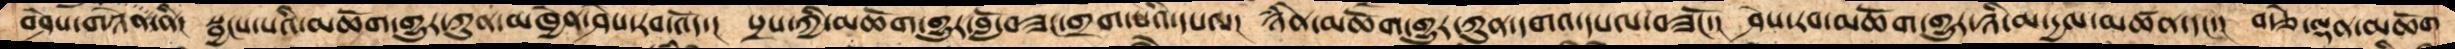བཤེས་གཉེན་ནི།  སྦྱངས་པའི་མཆོག་གྱུར་ཀུན་མཁྱེན་ཤེས་རབ་འོད་།  སྲས་ཀྱི་མཆོག་གྱུར་བློ་བཟང་གྲག་པའི་དཔལ།  ཉེཾན་མཆོག་གྱུར་ཀུན་དགའ་དཔལ་བཟངོ།  ཤེས་རབ་མཆོག་གྱུར་ཉི་མ་དྱལ་མཚན་དང་།  བརྩེ་ལྡན་མཆོག
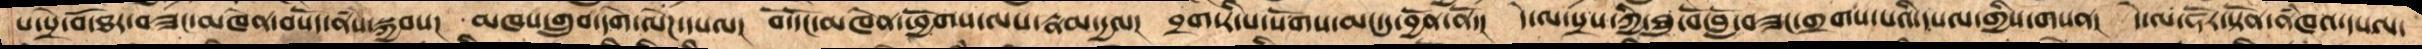པ་སྲེ་བོ་ཐར་བཟང་མཁེན་བསོད་ནཾས་སྐྱབས།  མཁས་གྲུབ་དགེ་ལེཌ་དཔལ།  བོ་དོང་ཕྱོགས་ལས་རྣམ་དྱལ།  བྲག་རི་པ་སོགས་མང་དུ་བྱོན་ནོ།  དེ་ལ་སྲས་ཀྱི་ཐུ་བོ་བློ་བཟང་གྲགས་པའི་དཔལ་གྱིས་གསན།  དེ་ལ་ཧོར་སྟོན་ནཾཁའ་དཔལ་
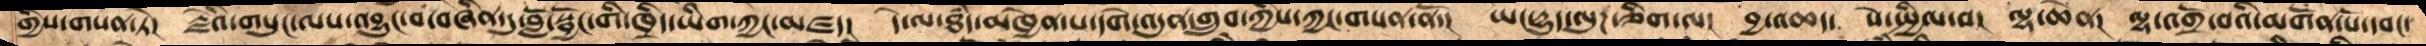གྱིས་གསན་ཏེ།  དེའི་གསུང་ལས་འབྱུང་བ་བཞིན་དུ་བློ་སྦྱོང་ཁྲིད་ཡིག་ཀྱང་མཛད།  དེ་ལ་ཐཾད་མཁྱེན་པ་དགེ་འདུན་གྲུབ་ཀྱིས་ཀྱང་གསན་ནོ།  ཡང་དྱུད་ལུཌ་ཅིག་ལ།  བྱ་འཆད་ སེ་སྤྱིལ་བ།  ལྷ་ཆེན།  ལྷ་འགྲོ་བའི་མགོན་པོ་དབང་
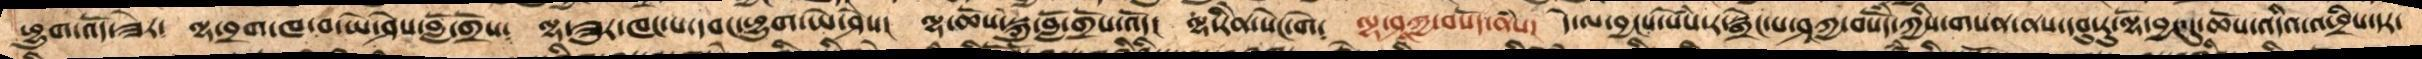ཕྱུག་འོད་ཟེར༴  ལྷ་བྲག་ཁ་བ་ཡེ་ཤེས་བློ་གྲོས༴ ལྷ་ཟུར་ཁང་པ་དབང་ཕྱུག་ཡེ་ཤེས།  ལྷ་ཆོས་སྐུ་བློ་གྲོས་འོད།  ལྷ་རིེན་སེང་གེ།  ལྷ་ཤཱཀྱ་བསོད་ནཾས།  དེ་ལ་བྱང་སེཾས་ར་སྒྲེང་པ་ཤཱཀྱ་བསོདཾ་ཀྱིས་གསན་ནས་དབུ་རུ་ལྷོ་བྱང་དུ་ཆོས་འདིའི་འཕྲིས་དར་
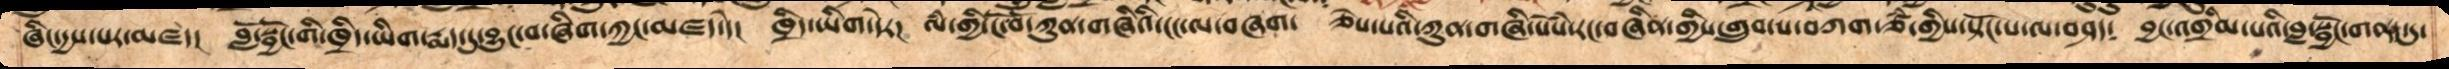ཞིང་དྱས་པར་མཛད།  བློ་སྦྱོང་གི་ཁྲིད་ཡིག་རྨད་དུ་བྱུང་བ་ཞིག་མཛད།  ཁྲིད་ཡིག་དེར།  ལཾ་གྱི་ངོ་བོ་ཀུན་གཞིའི་ངང་ལ་བཞད།  ཅེས་པའི་ཀུན་གཞི་སེཾས་རང་བཞིན་གྱིས་གྲུབ་པ་བཀག་ཙཾ་གྱིས་སྟོང་པ་ལ་བཤད༴  བྱང་འགྲིམ་པའི་བླ་སྦྱོང་གནང་དུ་
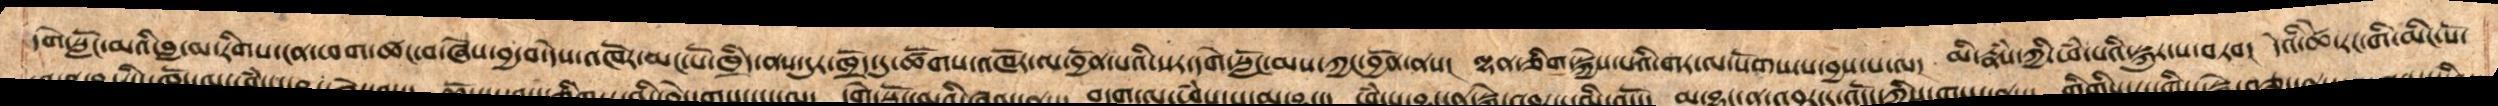དགེ་སློང་མའི་བླ་མ་རིགས་ངན་ཕག་ཚང་བ་ཞེས་བྱ་བ་དེས་འཁོར་མང་པོ་ཁྲིད་ནས་དུར་ཁྲོད་དུ་ཚོགས་འཁོར་ལ་བྱོན་པའི་སར་དགེ་སློང་མས་ཀྱང་བྱོན་ནས། ལྷན་ཅིག་སྐྱེས་པའི་གར་ལ་སོགས་པ་བྱས་པ་ལ། མི་རྣཾས་ཀྱི་ཕཾ་པའི་སྐུར་པ་བཏབ། དེའི་ཚེ་རང་གི་མིང་པོ་
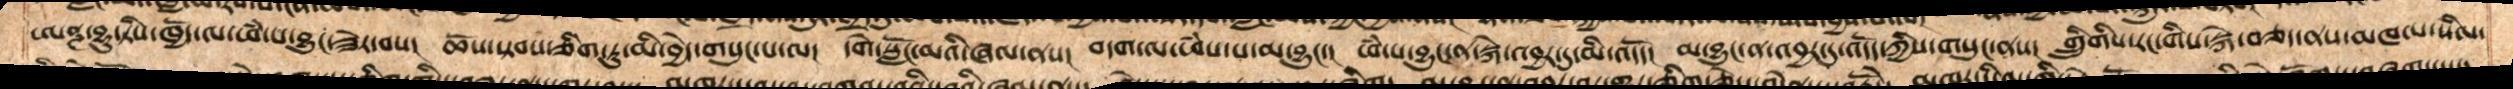ཨནྜ་བྷཱུ་ཏིས་ཁྱོད་ལ་ཕཾ་པ་བྱུང་ཟེར་བས། ཆོས་སྟབས་ཅིག་ཏུ་མི་བྱེད་གསུང་པ་ལ། དགེ་སློང་མའི་ཞལ་ནས། བདག་ལ་ཕཾས་པ་མ་བྱུང་། ཕཾ་པ་བྱུང་ན་སྐེ་འབྱར་དུ་མི་འདོད། མ་བྱུང་ན་འབྱར་དུ་འདོད་ཀྱིས་གསུང་ནས། གྲིུགིས་རང་གིས་སྐེ་བཅད་ནས་མཁལ་སིལ་
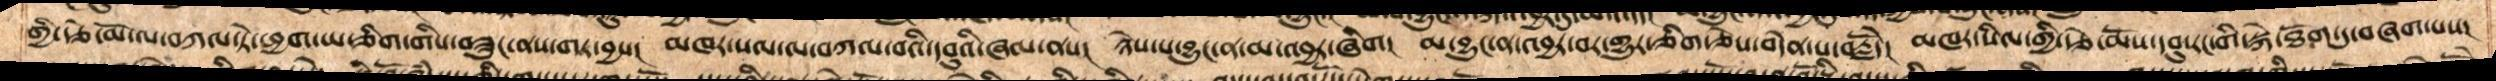གྱི་རྩེ་མོ་ལ་བཀལ་ཏེ་ཕྱག་ཡ་ཅིག་གིས་བཟུང་ནས་གར་བྱས།  མཁར་སལ་ལ་བཀལ་བའི་དབུའི་ཞལ་ནས།  ཉེས་པ་བྱུང་ན་མ་འབྱར་ཞིག།  མ་བྱུང་ན་འབྱར་བར་གྱུར་ཅིག་ཅེས་བདེན་པ་བརྗོདེ།  མཁར་སིལ་གྱི་རྩེ་མོས་དབུ་རང་གི་སྐེ་ཐོག་ཏུ་བཞག་པས།
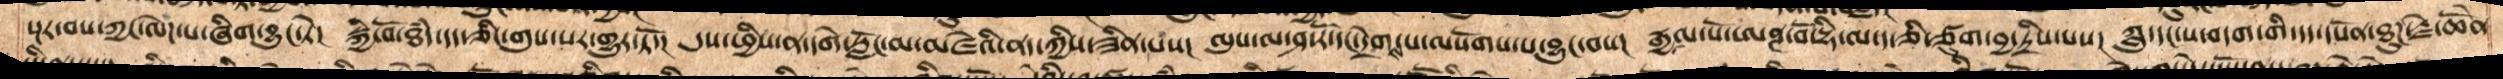སྔར་བས་ཀྱང་ལེཌ་པ་ཞིག་བྱུང་ཏེ།  སྐྱེ་བོ་ཐཾད་དད་ཅིང་གུས་པར་གྱུར་ཏོ་།  དུས་ཕྱིས་ན་དགེ་སློང་མ་མཛེའི་ནད་ཀྱིས་ཟིན་པས།  ལུས་ལ་ཤ་རོ་དང་དྲེགས་པ་ལསོགས་པ་བྱུང་བས།  རྒྱལ་པོ་ཨནྚ་བོ་ཌྷི་ལ་ད་ཅི་ཙུག་བྱ་ཏྲིས་པས། ཀླུ་དང་ས་བདག་གི་དད་དཔོན་ཐུཌ་རྗེ་ཆེནོ་
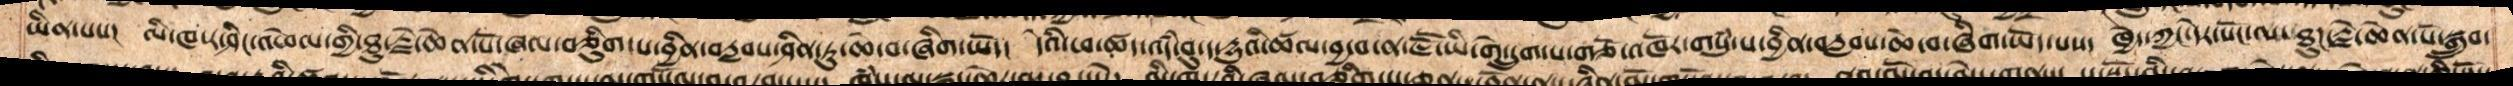ཡིན་པས། ལི་ཁ་ར་ཤིང་འཕེལ་ན་ཐུ་རྗེ་ཆེན་པོ་ཞལ་བཅིུག་པ་བྱིན་བརླབས་ཤིན་ཏུ་ཆེ་བ་ཞིག་ཡོད། དེའི་ཕ་ཚད་འདཾ་བུ་ད་དྱུའི་ཚལ་བྱ་བ་ན་ཇཽ་ཡི་གེ་དྲུག་པ་གཙོ་འཁོར་གསུཾ་པ་བྱིན་བརླབས་ཆེ་བ་ཞིག་ཡོད་པས། ཁྱེད་ཀྱང་དེར་སོང་ལ་ཐུཌ་རྗེ་ཆེན་པོ་སྒྲུབ་
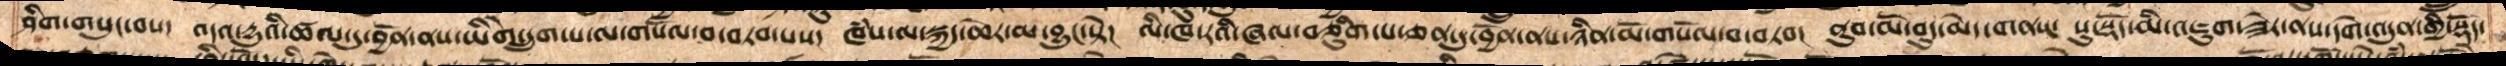ཤིག་གསུང་བས།  འདའ་དྱུའི་ཚལ་དུ་བྱོན་ནས་ཡིགེ་དྲུག་པ་ལ་གསོལ་བ་བཏབ་པས།  ཁཾས་ལ་སྐྱ་ཆེར་མ་བྱུང་སྟེ།  ལི་ཁ་རའི་ཞལ་བཅིུག་པ་ཅན་དུ་བྱོན་ནས་ཉིན་མོ་གསོལ་བ་བཏབ།  ནུབ་མོ་བུད་མེད་གནས༴ སུ་སྡོད་མི་འཇུག་ཟེར་ནས་དགེ་འདུན་གྱི་སྡོད་
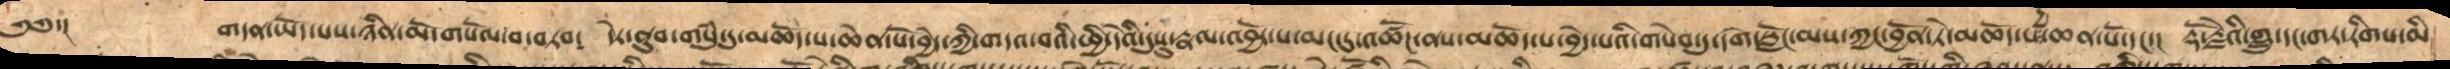༄༅་།      གདན་ཡོད་པས་ཉིན་མོ་གསོལ་བ་བཏབ།  དེའི་ནུབ་གསུཾ་དུ་མཆོད་པ་ཆེན་པོ་བྱེད་ཀྱི་གདའ་བའི་ཕྱི་དེའི་དུསུ་རྣལ་འབྱོར་པ་མང་དུ་འཚོཌ་ནས་མཆོད་པ་བྱེད་པའི་གསེབ་དུ་དགེ་སློང་མས་ཀྱང་བྱོན་ཏེ་མཆོད་པ་དྱ་ཆན་པོ་དང་། རྡོ་རྗེའི་གླུ་དང་གར་རིགས་མི་
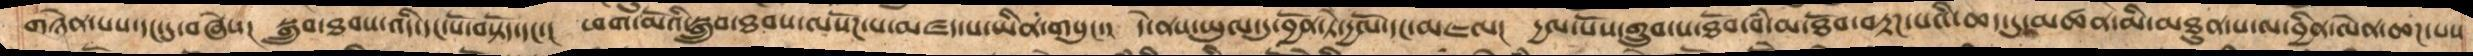མཉེན་པས་དང་དུ་བཞེས།  སྒྲུབ་ཐབས་འདི་དང་པོ་བསྟོད་དང་།  ཕག་མོའི་སྒྲུབ་ཐབས་ལསོཌ་པ་མཛད་པ་ཡིན་གསུང་།  དེ་ནས་ཡུལ་དུ་བྱོན་ཏེ་དྱལོ་དང་མཇལ།  དྱལ་པོས་གྲུབ་པ་ཐོབ་བཾ་མ་ཐོབ་བརྟཌ་པའི་ཆད་དུ་མཚན་མཐུན་པ་ལ་བྱིན་ལེན་ཆཌ་པས་
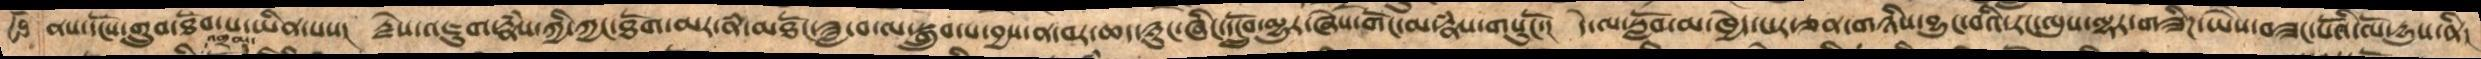ནས་དངོས་གྲུབ་ཐོབ་པ་ཡིན་པས། རྗེས་འཇུག་རྣཾས་ཀྱི་ཀྱང་ཐོག་མར་ནཾ་མཐོང་ཟླ་བ་ལ་སྒྲུབ་པ་བྱས་ན་བར་ཆད་ཉུང་ཞིང་དངྲོུབ་མྱུར་ཞེས་གོང་མ་རྣཾས་གསུངོ་།  དེ་ལ་སློབ་མ་ཁྱེད་པར་ཅན་གཉིས་བྱུང་བའི་རང་ལུས་ལྷར་གཟིཌ་ཡཻས་བཟང་པོའི་ལོ་དྱུས་ནི་
